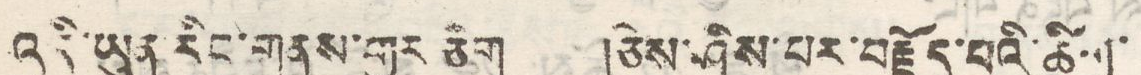པའི་ཡུན རིང་གནས་གྱུར ཅིག །ཅེས་ཤིས་པར་བརྗོད་པའི་ཚིག་
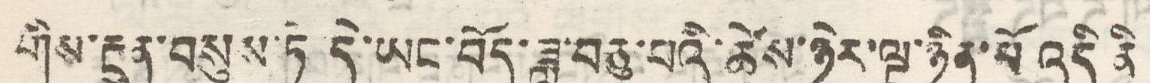གིས་རྔུན་བསུས་ཏེ དེ་ཡང་བོད་ཟླ་བཅུ་པའི་ཚེས་ཉེར་ལྔ་ཉིན་མི འདི ནི
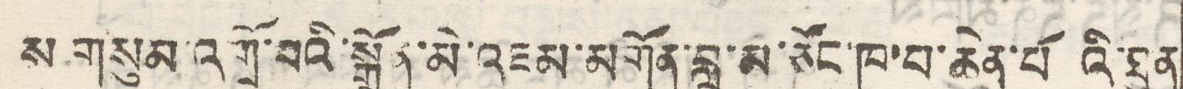ས གསུམ་འགྲོ་བའི་སྒྲོན་མེ་འཇམ་མགོན་བླ་མ་ཙོང་ཁ་བ་ཆེན་པོའི་ཐུན
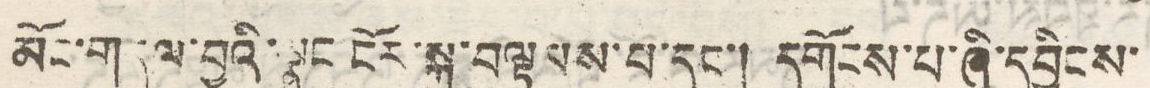མོང་གདུལ་བྱའི་སྣང ངོར་སྐུ་བལྟམས་པ་དང་། དགོངས་པ་ཞི་དབྱིངས་
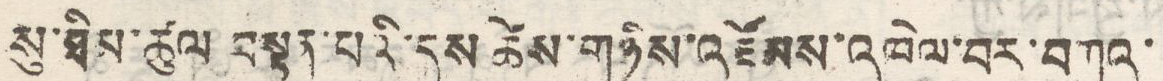སུ་ཐིམ་ཚུལ བསྟན་པའི་དུས ཚེས་གཉིས་འཛོམས་འཁེལ་བར་བཀའ་
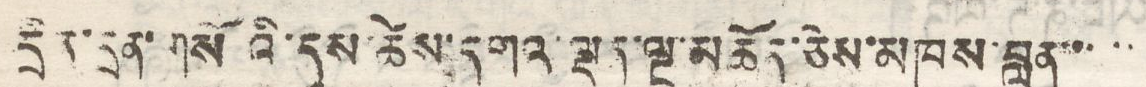དྲིན་དྲན་གསོའི་དུས་ཚེས་དགའ་ལྡན་ལྔ་མཆོད་ཅེས་མཁས་བླུན་་་་་
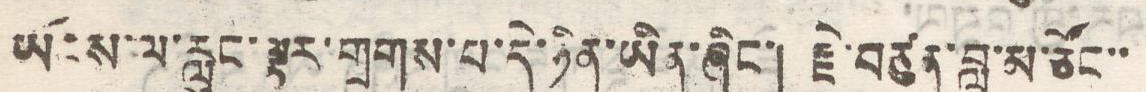ཡོངས་ལ་རླུང་ལྟར་གྲགས་པ་དེ་ཉིན་ཡིན་ཞིང་། རྗེ་བཙུན་བླ་མ་ཙོང་་
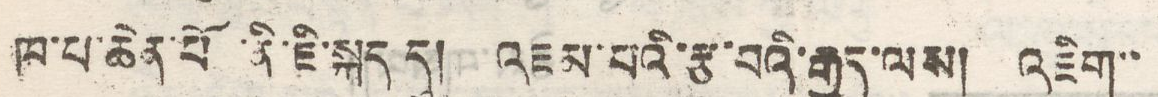ཁ་པ་ཆེན་པོ་ནི་ཇི་སྐད དུ། འཇམ་པའི་རྩ་བའི་རྒྱུད་ལས། འཇིག་་
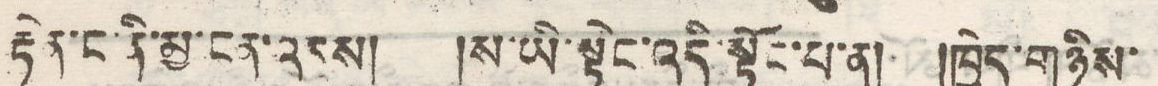རྟེན་ང་ནི་མྱ་ངན་འདས། །ས་ཡི་སྟེང་འདི་སྟོང་པ་ན། །ཁྱེད་གཉིས་
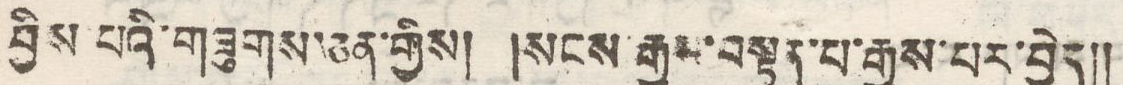བྱིས པའི་གཟུགས་ཅན་གྱིས། །སངས་རྒྱས་བསྟན་པ་རྒྱས་པར་བྱེད།།
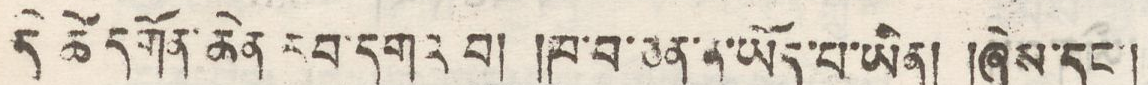དེ ཚེ དགོན་ཆེན རབ་དགའ་བ། །ཁ་བ་ཅན་ན་ཡོད་པ་ཡིན། །ཞེས་དང་།
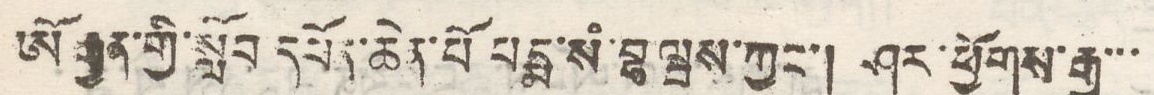ཨོ རྒྱན་གྱི་སློབ དཔོན་ཆེན་པོ པདྨ་སཾ་བྷ ཝས་ཀྱང་། ཤར་ཕྱོགས་རྒྱ་་་
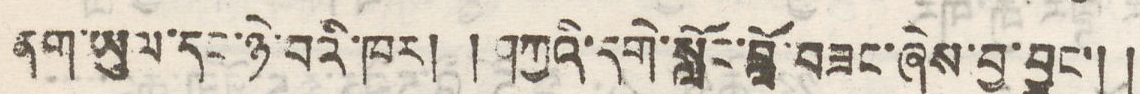ནག་ཡུལ་དང་ཉེ་བའི་ཁར། །ཤཀྱའི་དགེ་སློང་བློ་བཟང་ཞེས་བྱ་བྱུང་།།
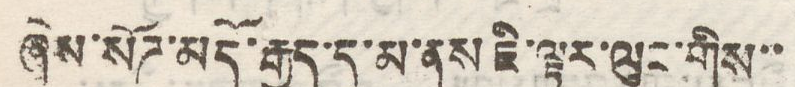ཞེས་སོཌ་མདོ་རྒྱུད་དུ་མ་ནས ཇི་ལྟར་ལུང་གིས་་
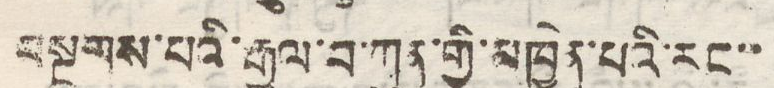བསྔགས་པའི་རྒྱལ་བ་ཀུན་གྱི་མཁྱེན་པའི་རང་་
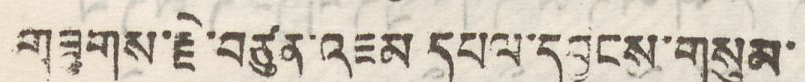གཟུགས་རྗེ་བཙུན་འཇམ དཔལ་དབྱངས་གསུམ་
